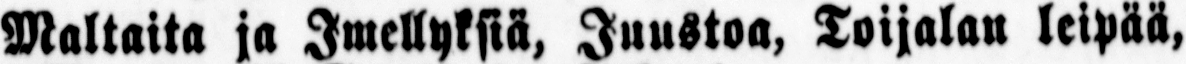Maltaita ja Imellyksiä, Juustoa, Toijalan leipää.
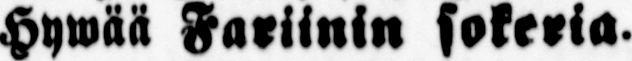Hywää Fariinin sokeria-
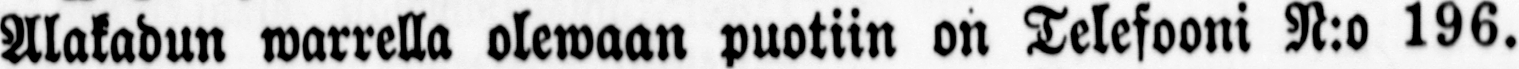Alakadun warrella olewaan puotiin on Telefooni N:o 196.
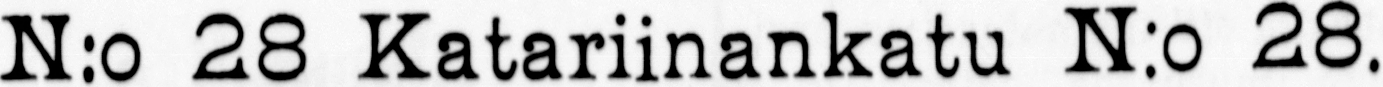N:o 28 Katariinankatu N:o 28.
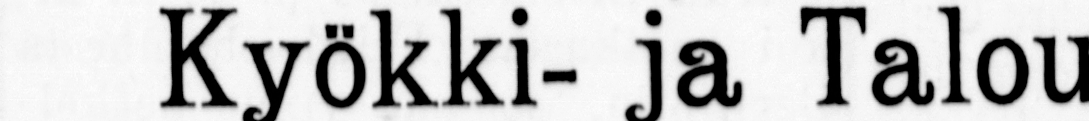Kyökki- ja Talouskaluja.
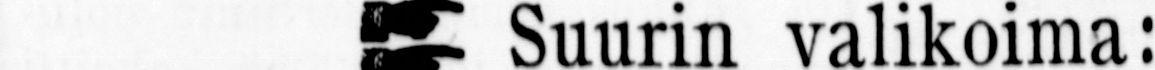Suurin valikoima:
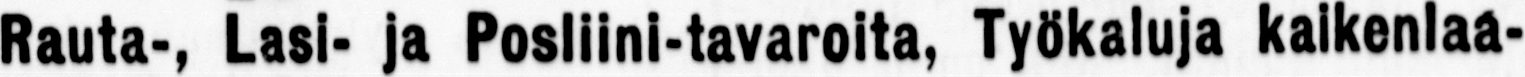Rauta-, Lasi- ja Posliini-tavaroita, Työkaluja kaikenlaa-
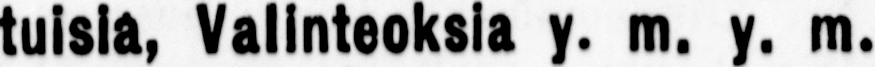tuisia, Valinteoksia y. m. y. m.
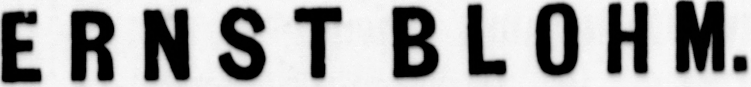ERNST BLOHM.
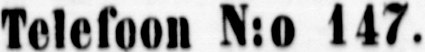Telefoon N:o 147.
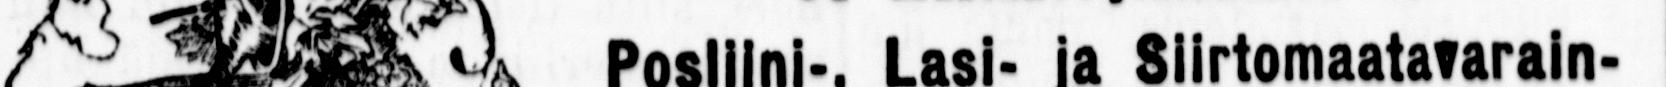K. NISSINEN
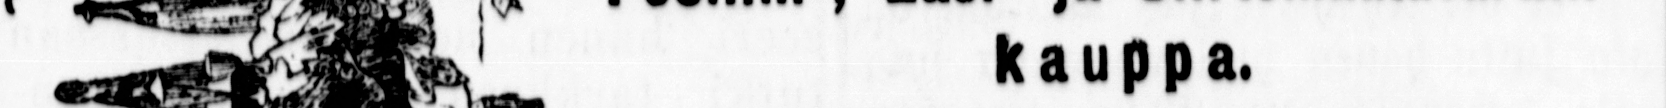Posliini-, Lasi- ja Siirtomaatavarain-
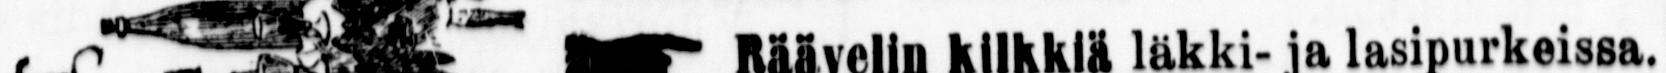Suorastaan sisääntullut
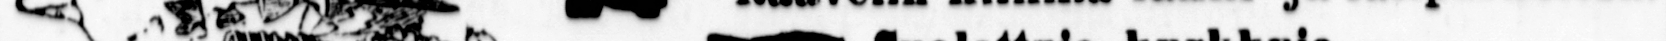Viinejä
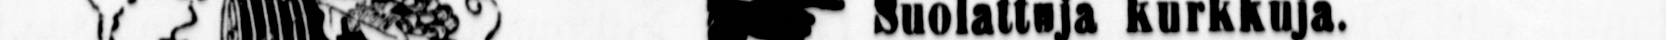kohtuullisiin hintoihin.
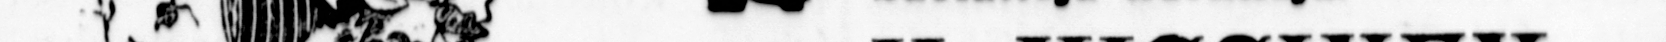Räävellin kilkkiä läkki- ja lasipurkeissa.
